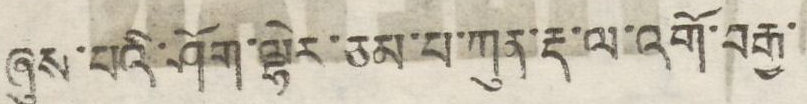ཞུས་པའི་ཤོད་ལྷེར་ཅམ་པ་ཀུན་རྡ་ལ་འགོ་བརྒྱ་
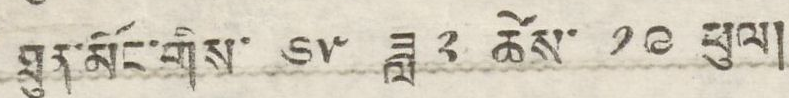ཐུན་མོང་གིས་ ༦༥ ཟླ ༢ ཚེས་ ༡༩ ཕུལ།
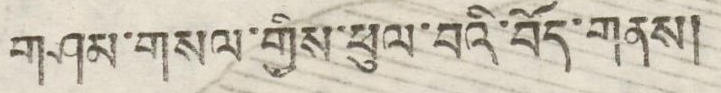གཤམ་གསལ་གྱིས་ཕུལ་བའི་བོད་གནས།
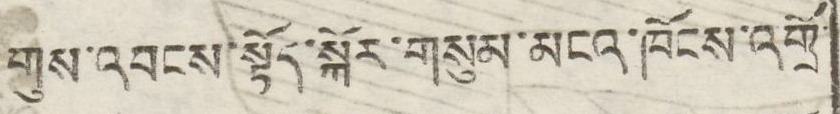གུས་འབངས་སྟོད་སྐོར་གསུམ་མངའ་ཁོངས་འགྲོ
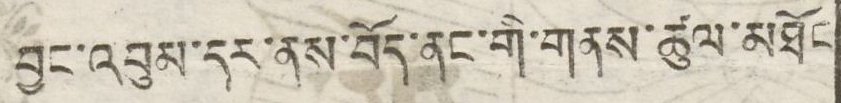བྱང་འབུམ་དར་ནས་བོད་ནང་གི་གནས་ཚུལ་མཐོང
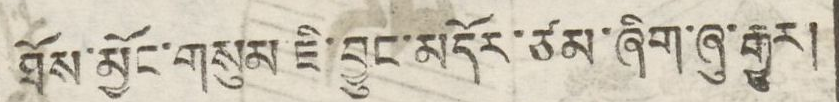ཐོས་མྱོང་གསུམ་ཇི་བྱུང་མདོར་ཙམ་ཞིག་ཞུ་རྒྱུར།
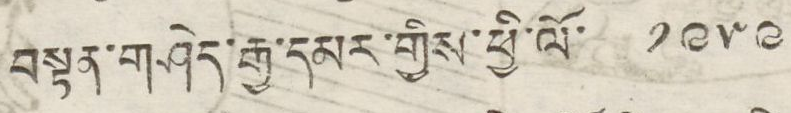བསྟན་གཤེད་རྒྱ་དམར་གྱིས་ཕྱི་ལོ་ ༡༩༥༩
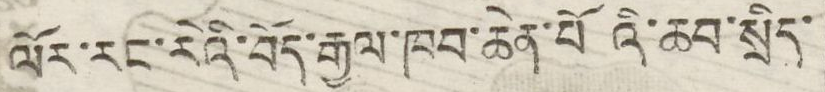ལོར་རང་རེའི་བོད་རྒྱལ་ཁབ་ཆེན་པོ འི་ཆབ་སྲིད་
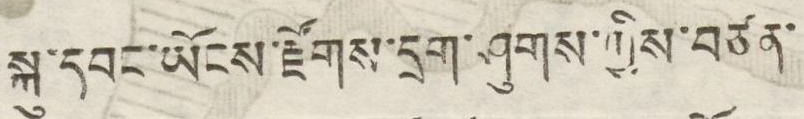སྐུ་དབང་ཡོངས་རྫོགས་དྲག་ཤུགས་ཀྱིས་བཙན་
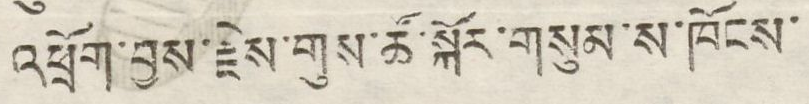འཕྲོག་བྱས་རྗེས་གུས་ཚོ་སྐོར་གསུམ་ས་ཁོངས་
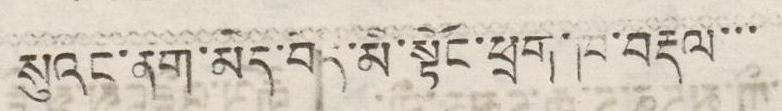སུའང་ནག་མེད་བོད་མི་སྟོང་ཕྲག་ཁ་བརྡལ་་་
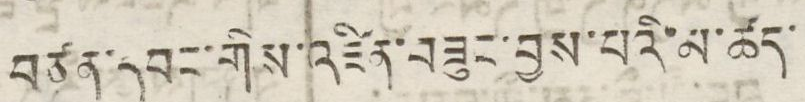བཙན་དབང་གིས་འཛིན་བཟུང་བྱས་པའི་མ་ཚད་
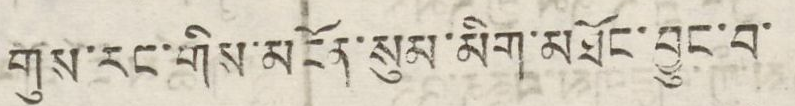གུས་རང་གིས་མངོན་སུམ་མིག་མཐོང་བྱུང་བ་
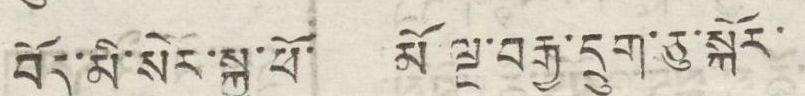བོད་མི་སེར་སྐྱ་ཕོ་ མོ་ལྔ་བརྒྱ་དྲུག་ཅུ་སྐོར་
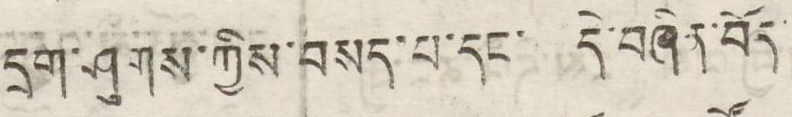དྲག་ཤུགས་ཀྱིས་བསད་པ་དང་ དེ་བཞིན་བོད
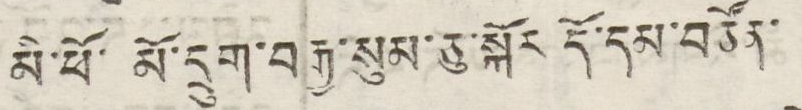མི་ཕོ་ མོ་དྲུག་བརྒྱ་སུམ་ཅུ་སྐོར དོ་དམ་བཙོན་
